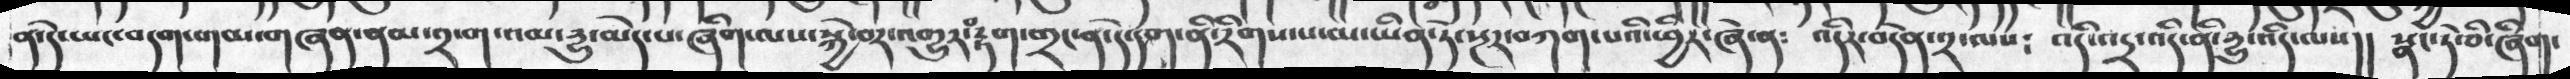ན་དེ་ཡང་བདག་གམ་གཞན་ནམ་༢་ག་འམ་དྱུ་མེད་པ་ཞིག་ལས་སྐྱེ་བར་འགྱུར་བརྟག་གྲང་ན་དེ་དག་ནི་རིགས་པ་མ་ཡིན་ཏེ་སྔར་བཀག་པའི་ཕྱིར་ཞེ་ན༴  འདིར་བདེན་༢་ལས༴  འདི་འདྲ་འདི་ནི་དྱུ་འདི་ལས།།  སྣང་དེ་བི་ཞིག་
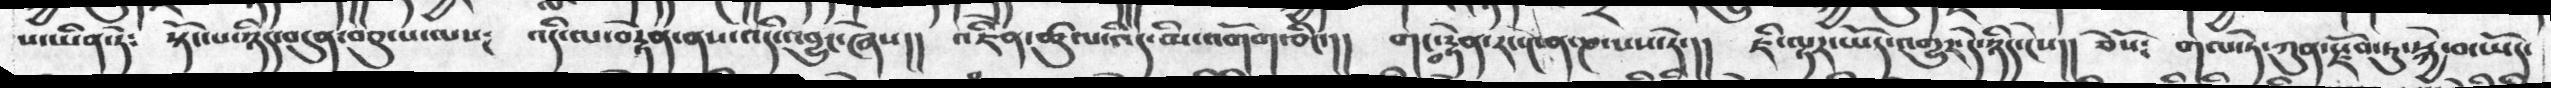པ་ཡིན་ཏེ༴  སྟོང་པ་ཉིད་བདུན་བཅུ་ལས༑   འདི་ལ་བརྟེན་ནས་འདི་འབྱུང་ཞེས།།  འཇིེན་ཚུལ་འདི་མི་འགོག་ཅིང་།།  གང་བརྟེན་རང་༤ན་ཎ་པས་རེ་།།  ཇི་ལྟར་ཡོད་འགྱུར་དེ་ཉིད་ངེས།།  ཅེསོ༴   གལ་ཏེ་ཀུན་རྫོབ་ཏུ་སྐྱེ་བ་ཡོད་
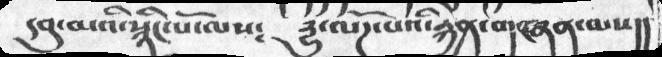དབུ་མའི་སྙིང་པོ་ལས༴    དྱུ་ལོཌ་པའི་རྐྱེན་གཞན་ལས།།
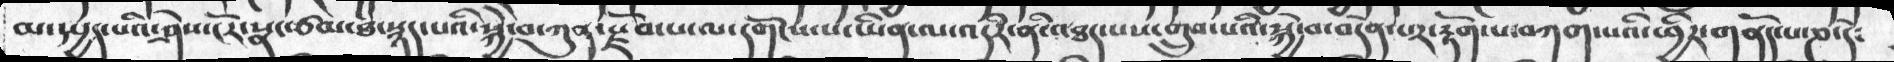མ་དཔྱད་པའི་ཤེས་ངོར་སྣང་ཙམ་ཐ་སྙད་པའི་སྐྱེ་བ་ཀུན་སྫོབ་པ་ལ་དགོངས་པ་ཡིན་ལ་འདིར་ནི་འཐད་པས་གྲུབ་པའི་སྐྱེ་བ་བདེན་པར་རྟོག་པ་བཀག་པའི་ཕྱིར་གནོད་པ་ཎ་དེ༴
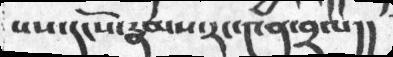པས་དངོས་རྣམས་རང་༤ན་བྲལ།།
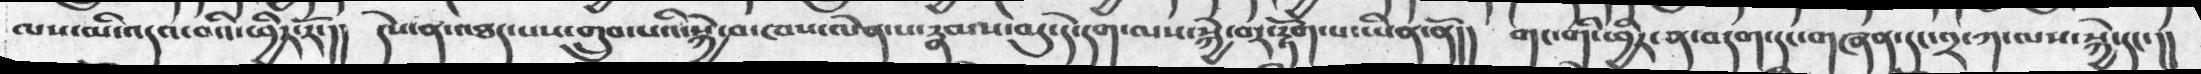ལས་མི་འདའ་བའི་ཕྱིར་རོ་།།  དེས་ན་འཐད་པས་གྲུབ་པའི་སྐྱེ་བ་ཁས་ལེན་པ་རྣམས་མུ་དེ་དདག་ལས་སྐྱེ་བར་རྟོག་པ་ཡིན་ནོ།།   གང་གི་ཕྱིར་ན་བདག་དང་གཞན་དང་༢་ཀ་ལས་སྐྱེ་དང་།།
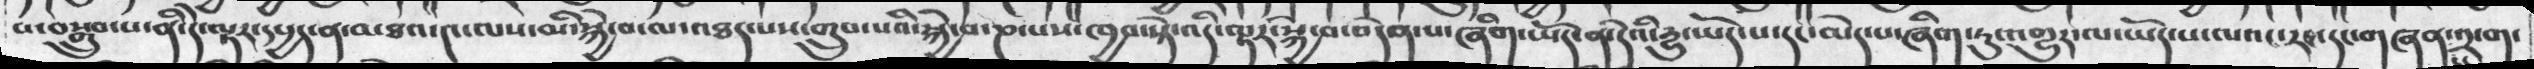བ་བསྒྲུབ་པ་ནི་དེ་ལྟར་དཔྱད་ན་མཐའ་༤་ལས་མི་སྐྱེ་བ་ལ་འཐད་པས་གྲུབ་པའི་སྐྱེ་བ་ཎ་པས་ཁྱབ་སྟེ་འདི་ལྟར་སྐྱེ་བ་བདེན་པ་ཞིག་ཡོད་ན་དེའི་དྱུ་ཡོད་པ་དང་མེད་པ་ཞིག་ཏུ་འགྱུར་ལ་ཡོད་པ་ལའང་རང་དང་གཞན་༢་ག་
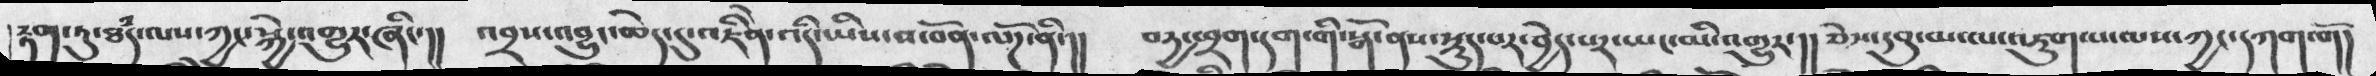རྟག་ཏུ་ཐཾད་ལས་ཀྱང་སྐྱེ་འགྱུར་ཞིང་།།  འབྲས་འབྱུང་ཆེད་དུ་འཇིེན་འདི་ཡིས་ས་བོན་ལོཌ་ནི་།།   བདྱ་ཕྲག་དག་གི་སྒོ་ནས་སྡུད་པར་བྱེད་པར་ཡང་མི་འགྱུར་།།  ཅེས་དབུ་མ་ལ་འཇུག་པ་ལས་ཀྱང་དཀག་གོ།
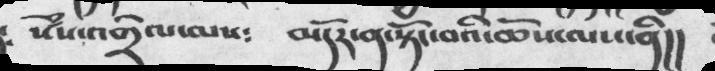སེྃས་འགྲེལ་ལས༴    མདོར་ན་སྟོང་བའི་ཆོས་ལས་ནི།།
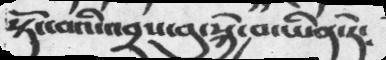སྟོང་བའི་་འབྲས་བུ་སྐྱེ་བ་ཡིན་ཏེ༴
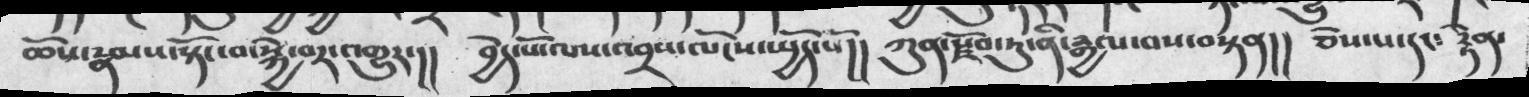ཆོས་རྣམས་སྟོང་བ་སྐྱེ་བར་འགྱུར་།།  བྱེད་པོ་ལས་འབྲས་ལོངས་སྤྱོད་སོ།།  ཀུན་རྫོབ་ཏུ་ནི་རྒྱལ་བས་བསྟན།།  ཅེས་པ་དང༴  རྟེན་
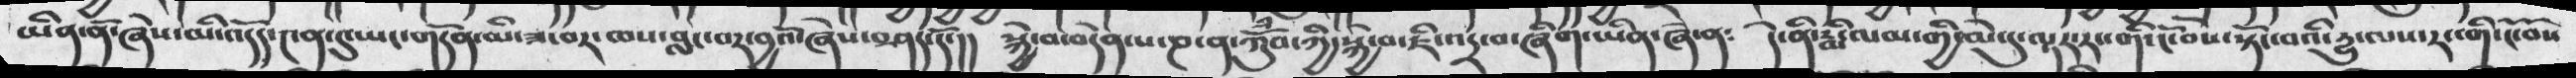ཡིན་ནོ་ཞེས་མི་འདོད་༤ན་དུ་ཡང་གདོན་མི་ཟ་བར་ཁས་བླང་བར་བྱའོ་ཞེས་བཤད་དོ་།།  སྐྱེ་བ་བདེན་པ་ཎ་ན་ཀོུཾབ་ཀྱི་སྐྱེ་བ་ཇི་འདྲ་བ་ཞིག་ཡིན་ཞེ་ན༴   དེ་ནི་རྨི་ལམ་གྱི་མེ་དུ་ལྟར་རང་གི་ངོ་བོས་སྟོང་བའི་དྱུ་ལས་རང་གི་ངོ་བོས
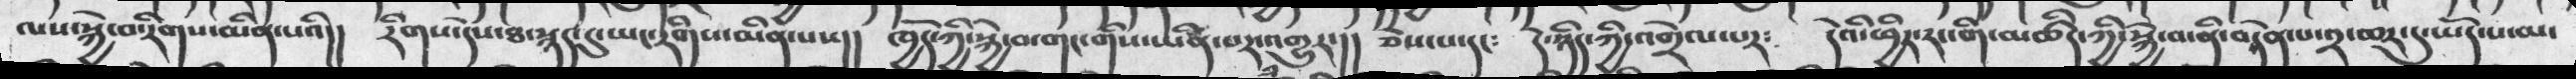ལས་སྐྱེ་བ་རིགས་མིན་པའི།།  རིགས་དེས་ཐ་སྙད་དུ་ཡང་རིགས་མིན་པས།།   ཁྱོད་ཀྱི་སྐྱེ་བ་གང་གིས་ཡིན་པར་འགྱུར་།།   ཅེསཔ་དང༴   དེ་ཉིད་ཀྱི་འགྲེལ་པར༴  དེའི་ཕྱིར་རང་གི་མཚིད་ཀྱི་སྐྱེ་བ་ནི་བདེན་པ་༢་ཆར་དུ་ཡོད་པ་མ་
